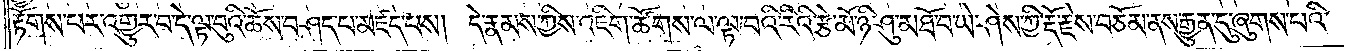རྟོགས་པར་འགྱུར་བ་དེ་ལྟ་བུའི་ཆོས་བཤད་པ་མཛད་པས། དེ་རྣམས་ཀྱིས་འཇིག་ཚོགས་ལ་ལྟ་བའི་རིའི་རྩེ་མོ་ཉི་ཤུ་མཐོ་བ་ཡེ་ཤེས་ཀྱི་རྡོ་རྗེས་བཅོམ་ནས་རྒྱུན་དུ་ཞུགས་པའི་
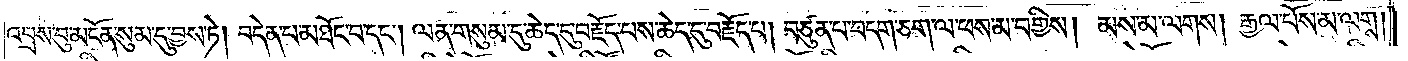འབྲས་བུ་མངོན་སུམ་དུ་བྱས་ཏེ། བདེན་པ་མཐོང་བ་དང༌། ལན་གསུམ་དུ་ཆེད་དུ་བརྗོད་པས་ཆེད་དུ་བརྗོད་པ། བཙུན་པ་བདག་ཅག་ལ་ཕས་མ་བགྱིས། མས་མ་ལགས། རྒྱལ་པོས་མ་ལགས་
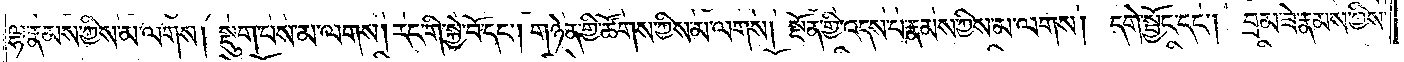ལྷ་རྣམས་ཀྱིས་མ་ལགས། སྡུག་པས་མ་ལགས། རང་གི་སྐྱེ་བོ་དང༌། གཉེན་གྱི་ཚོགས་ཀྱིས་མ་ལགས། སྔོན་གྱི་འདས་པ་རྣམས་ཀྱིས་མ་ལགས། དགེ་སྦྱོང་དང༌། བྲམ་ཟེ་རྣམས་ཀྱིས་
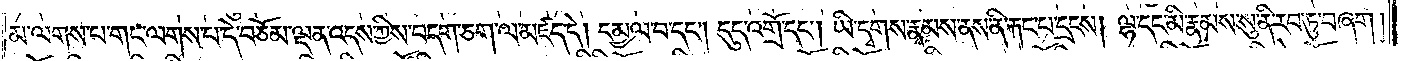མ་ལགས་པ་གང་ལགས་པ་དེ་བཅོམ་ལྡན་འདས་ཀྱིས་བདག་ཅག་ལ་མཛད་དེ། དམྱལ་བ་དང༌། དུད་འགྲོ་དང༌། ཡི་དྭགས་རྣམས་ནས་ནི་རྐང་པ་དྲངས། ལྷ་དང་མི་རྣམས་སུ་ནི་རབ་ཏུ་བཞག།
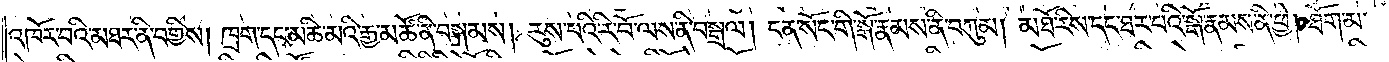འཁོར་བའི་མཐར་ནི་བགྱིས། ཁྲག་དང་མཆི་མའི་རྒྱ་མཚོ་ནི་བསྐམས། རུས་པའི་རི་བོ་ལས་ནི་བསྒྲལ། ངན་སོང་གི་སྒོ་རྣམས་ནི་བཀུམ། མཐོ་རིས་དང་ཐར་པའི་སྒོ་རྣམས་ནི་ཕྱེ། ཐོག་མ་
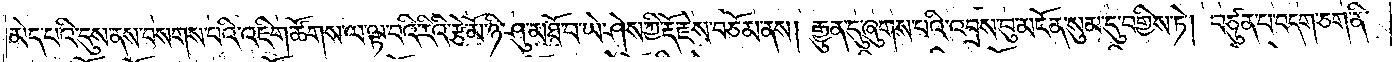མེད་པའི་དུས་ནས་བསགས་པའི་འཇིག་ཚོགས་ལ་ལྟ་བའི་རིའི་རྩེ་མོ་ཉི་ཤུ་མཐོ་བ་ཡེ་ཤེས་ཀྱི་རྡོ་རྗེས་བཅོམ་ནས། རྒྱུན་དུ་ཞུགས་པའི་འབྲས་བུ་མངོན་སུམ་དུ་བགྱིས་ཏེ། བཙུན་པ་བདག་ཅག་ནི་
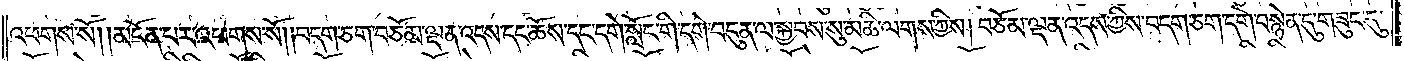འཕགས་སོ། །མངོན་པར་འཕགས་སོ། །བདག་ཅག་བཅོམ་ལྡན་འདས་དང་ཆོས་དང་དགེ་སློང་གི་དགེ་འདུན་ལ་སྐྱབས་སུ་མཆི་ལགས་ཀྱིས། བཅོམ་ལྡན་འདས་ཀྱིས་བདག་ཅག་དགེ་བསྙེན་དུ་གཟུང་དུ་
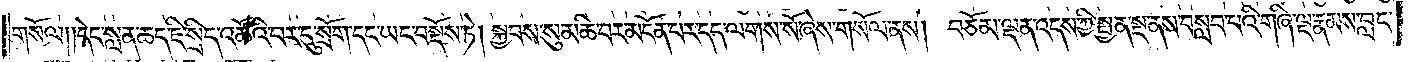གསོལ། །དེང་སླན་ཆད་ཇི་སྲིད་འཚོའི་བར་དུ་སྲོག་དང་ཡང་བསྡོས་ཏེ། སྐྱབས་སུ་མཆི་བར་མངོན་པར་དད་ལགས་སོ་ཞེས་གསོལ་ནས། བཅོམ་ལྡན་འདས་ཀྱི་སྤྱན་སྔ་ནས་བསླབ་པའི་གཞི་ལྔ་རྣམས་བླང་
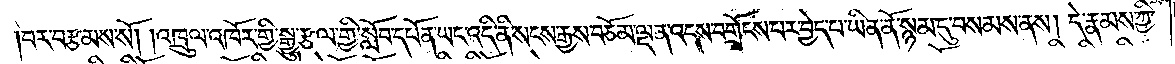བར་བརྩམས་སོ། །འཁྲུལ་འཁོར་གྱི་སྒྱུ་རྩལ་གྱི་སློབ་དཔོན་ཡང་འདི་ནི་སངས་རྒྱས་བཅོམ་ལྡན་འདས་བགྲོངས་པར་བྱེད་པ་ཡིན་ནོ་སྙམ་དུ་བསམས་ནས། དེ་རྣམས་ཀྱི་
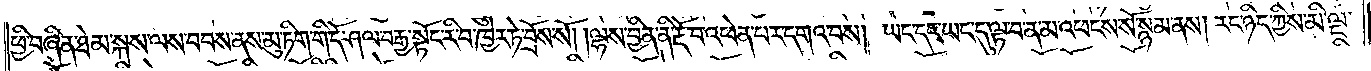ཕྱི་བཞིན་ཐེམ་སྐས་ལས་བབས་ནས་མུ་ཏིག་གི་དོ་ཤལ་བརྒྱ་སྟོང་རི་བ་ཁྱེར་ཏེ་བྲོས་སོ། །ལྷས་བྱིན་ནི་རྔོ་བ་འཕེན་པར་དགའ་བས། ཡང་དང་ཡང་དུ་ལྟ་བ་ན་མ་འཕངས་སོ་སྙམ་ནས། རང་ཉིད་ཀྱིས་མི་ལྔ་
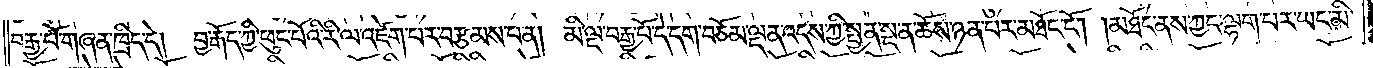བརྒྱ་པོ་གཞན་ཁྲིད་དེ། བྱ་རྒོད་ཀྱི་ཕུང་པོའི་རི་ལ་འཛེག་པར་བརྩམས་པ་ན། མི་ལྔ་བརྒྱ་པོ་དེ་དག་བཅོམ་ལྡན་འདས་ཀྱི་སྤྱན་སྔ་ན་ཆོས་ཉན་པར་མཐོང་ངོ༌། །མཐོང་ནས་ཀྱང་ལྷག་པར་ཡང་མི་
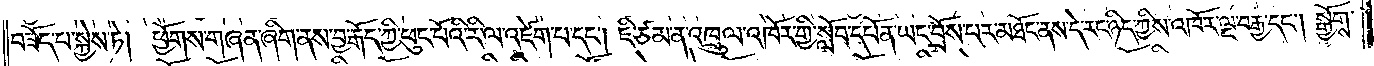བཟོད་པ་སྐྱེས་ཏེ། ཕྱོགས་གཞན་ཞིག་ནས་བྱ་རྒོད་ཀྱི་ཕུང་པོའི་རི་ལ་འཛེག་པ་དང༌། ཇི་ཙམ་ན་འཁྲུལ་འཁོར་གྱི་སློབ་དཔོན་ཡང་བྲོས་པར་མཐོང་ནས་དེ་རང་ཉིད་ཀྱིས་འཁོར་ལྔ་བརྒྱ་དང༌། སྒྱོགས་
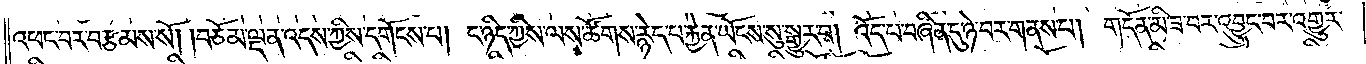འཕང་བར་བརྩམས་སོ། །བཅོམ་ལྡན་འདས་ཀྱིས་དགོངས་པ། ང་ཉིད་ཀྱིས་ལས་ཚོགས་རྙེད་པ་རྐྱེན་ཡོངས་སུ་སྒྱུར་བ། འོད་པ་བཞིན་དུ་ཉེ་བར་གནས་པ། གདོན་མི་ཟ་བར་འབྱུང་བར་འགྱུར་
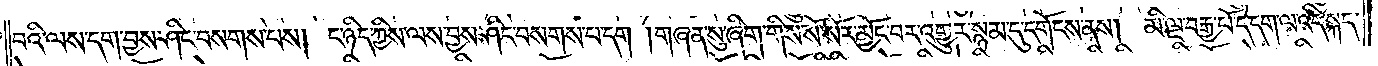བའི་ལས་དག་བྱས་ཤིང་བསགས་པས། ང་ཉིད་ཀྱིས་ལས་བྱས་ཤིང་བསགས་པ་དག །གཞན་སུ་ཞིག་གིས་སོ་སོར་མྱོང་བར་འགྱུར་སྙམ་དུ་དགོངས་ནས། མི་ལྔ་བརྒྱ་པོ་དེ་དག་ལ་འདི་སྐད་
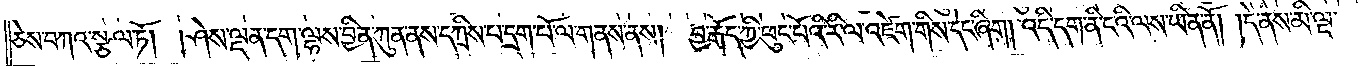ཅེས་བཀའ་སྩལ་ཏོ། །ཤེས་ལྡན་དག་ལྷས་བྱིན་ཀུན་ནས་དཀྲིས་པ་དྲག་པོ་ལ་གནས་ནས། བྱ་རྒོད་ཀྱི་ཕུང་པོའི་རི་ལ་འཛེག་གིས་དེང་ཞིག །འདི་དག་ནི་ངའི་ལས་ཡིན་ནོ། །དེ་ནས་མི་ལྔ་
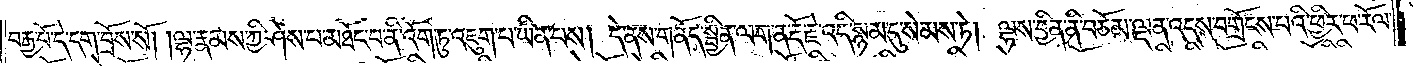བརྒྱ་པོ་དེ་དག་བྲོས་སོ། །ལྷ་རྣམས་ཀྱི་ཤེས་པ་མཐོང་བ་ནི་འོག་ཏུ་འཇུག་པ་ཡིན་པས། དེ་ནས་གནོད་སྦྱིན་ལག་ན་རྡོ་རྗེ་འདི་སྙམ་དུ་སེམས་ཏེ། ལྷས་བྱིན་ནི་བཅོམ་ལྡན་འདས་བགྲོངས་པའི་ཕྱིར་ཕ་རོལ་
